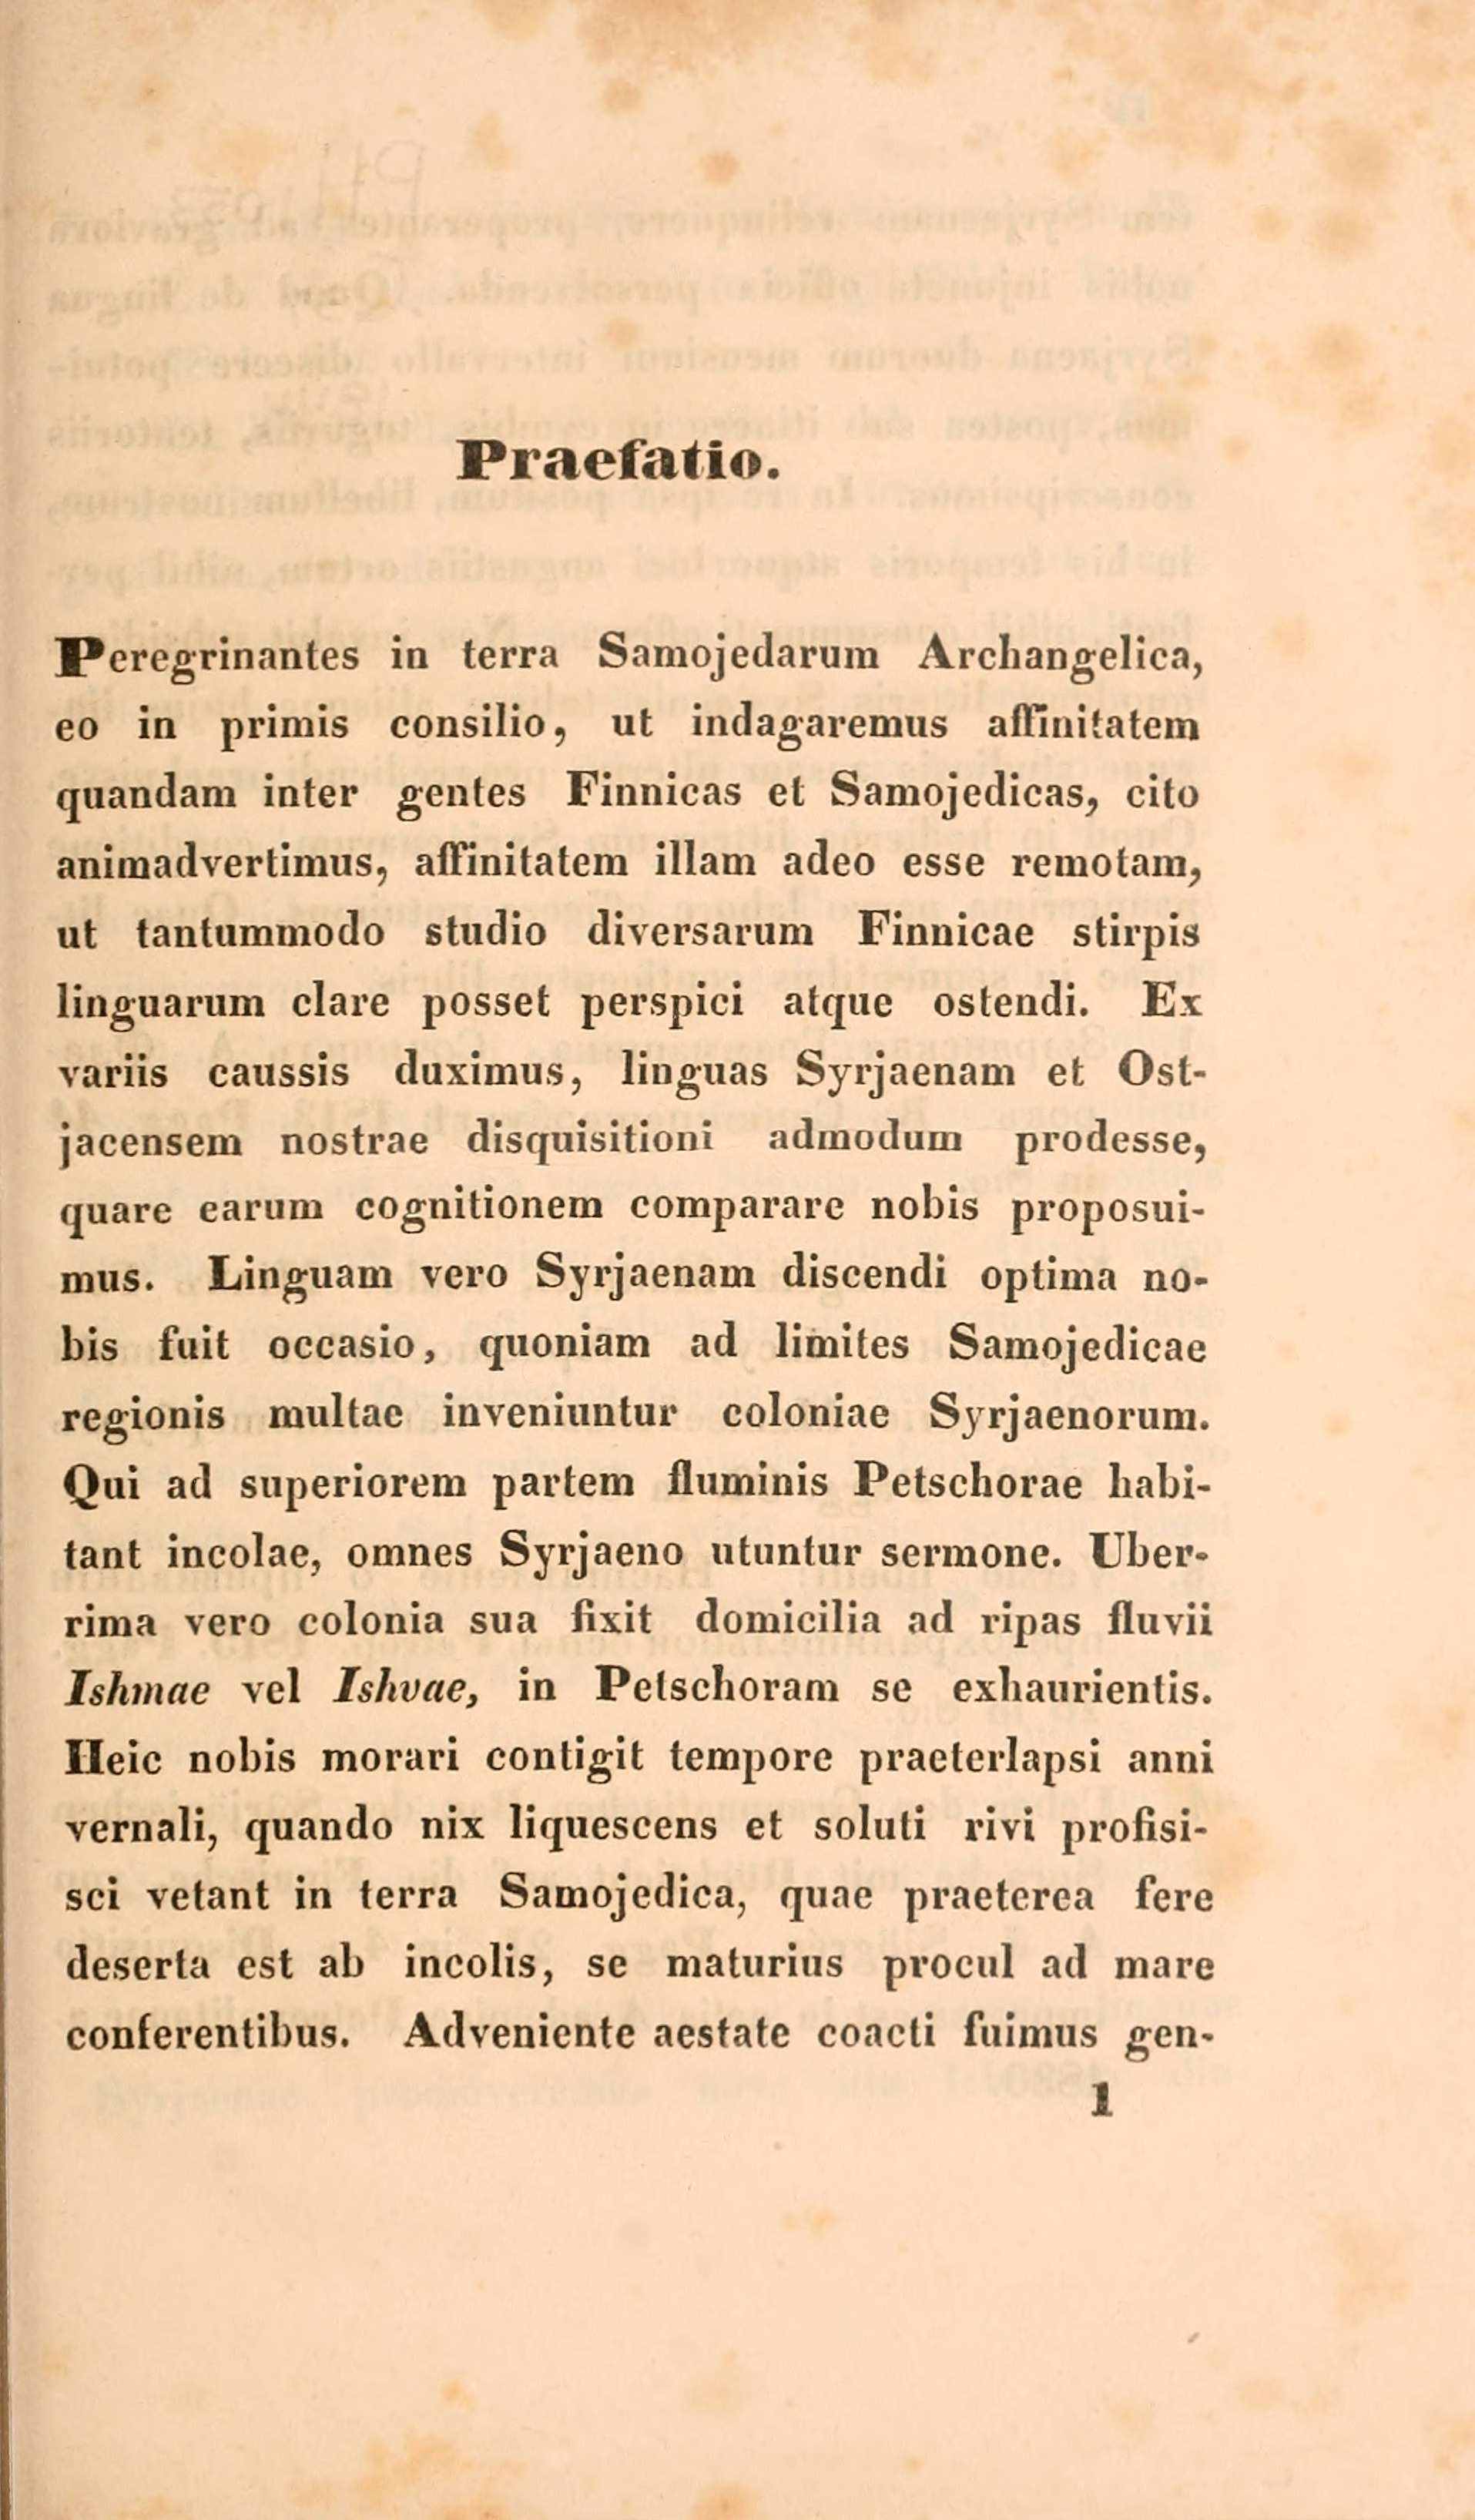Praefatio.
Peregrinantes in terra Samojedarum Archangelica,
eo in primis consilio, ut indagaremus assinitatem
quandam inter gentes Finnicas et Samojedicas, cito
animadvertimus, affinitatem illam adeo esse remotam,
ut tantummodo studio diversarum Finnicae stirpis
linguarum clare posset perspici atque ostendi. Ex
variis caussis duximus, linguas Syrjaenam et Ost-
jacensem nostrae disquisitioni admodum prodesse,
quare earum cognitionem comparare nobis proposui-
mus. Linguam vero Syrjaenam discendi optima no-
bis fuit occasio, quoniam ad limites Samojedicae
regionis multae inveniuntur coloniae Syrjaenorum.
Qui ad superiorem partem fluminis Petschorae habi-
tant incolae, omnes Syrjaeno utuntur sermone. Uber-
rima vero colonia sua fixit domicilia ad ripas fluvii
Ishmae vel Ishvae, in Petschoram se exhaurientis.
Heic nobis morari contigit tempore praeterlapsi anni
vernali, quando nix liquescens et soluti rivi profisi-
sei vetant in terra Samojedica, quae praeterea fere
deserta est ab incolis, se maturius procul ad mare
conferentibus. Adveniente aestate coacti fuimus gen-
1
